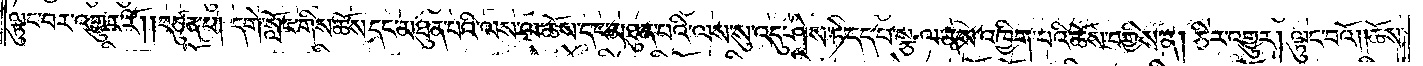ལྟུང་བར་འགྱུར་རོ། །བཙུན་པ། དགེ་སློང་གིས་ཆོས་དང་མཐུན་པའི་ལས་ལ་ཆོས་དང་མཐུན་པའི་ལས་སུ་འདུ་ཤེས་ཏེ་དད་པ་སྩལ་ནས་འཁྱིག་པའི་ཆོས་བགྱིས་ན། ཅིར་འགྱུར། ལྟུང་བའོ། །ཆོས་
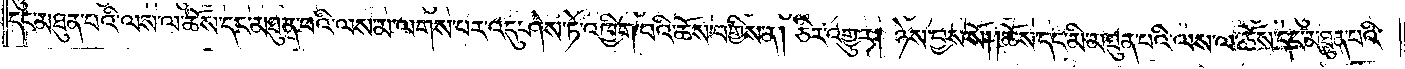དང་མཐུན་པའི་ལས་ལ་ཆོས་དང་མཐུན་པའི་ལས་མ་ལགས་པར་འདུ་ཤེས་ཏེ་འཁྱིག་པའི་ཆོས་བགྱིས་ན། ཅིར་འགྱུར། ཉེས་བྱས་སོ། །ཆོས་དང་མི་མཐུན་པའི་ལས་ལ་ཆོས་དང་མཐུན་པའི་
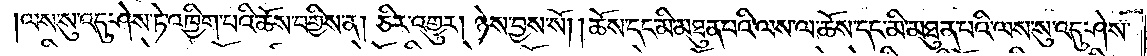ལས་སུ་འདུ་ཤེས་ཏེ་འཁྱིག་པའི་ཆོས་བགྱིས་ན། ཅིར་འགྱུར། ཉེས་བྱས་སོ། །ཆོས་དང་མི་མཐུན་པའི་ལས་ལ་ཆོས་དང་མི་མཐུན་པའི་ལས་སུ་འདུ་ཤེས་
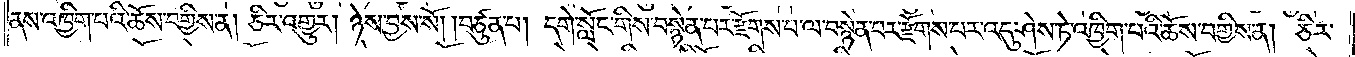ནས་འཁྱིག་པའི་ཆོས་བགྱིས་ན། ཅིར་འགྱུར། ཉེས་བྱས་སོ། །བཙུན་པ། དགེ་སློང་གིས་བསྙེན་པར་རྫོགས་པ་ལ་བསྙེན་པར་རྫོགས་པར་འདུ་ཤེས་ཏེ་འཁྱིག་པའི་ཆོས་བགྱིས་ན། ཅིར་
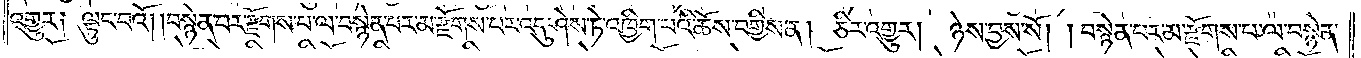འགྱུར༑ ལྟུང་བའོ། །བསྙེན་པར་རྫོགས་པ་ལ་བསྙེན་པར་མ་རྫོགས་པར་འདུ་ཤེས་ཏེ་འཁྱིག་པའི་ཆོས་བགྱིས་ན། ཅིར་འགྱུར། ཉེས་བྱས་སོ། །བསྙེན་པར་མ་རྫོགས་པ་ལ་བསྙེན་
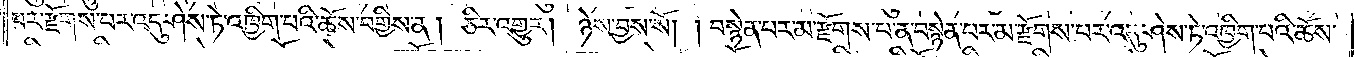པར་རྫོགས་པར་འདུ་ཤེས་ཏེ་འཁྱིག་པའི་ཆོས་བགྱིས་ན། ཅིར་འགྱུར། ཉེས་བྱས་སོ། །བསྙེན་པར་མ་རྫོགས་པ་ན་བསྙེན་པར་མ་རྫོགས་པར་འདུ་ཤེས་ཏེ་འཁྱིག་པའི་ཆོས་
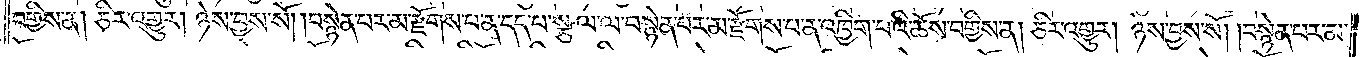བགྱིས་ན། ཅིར་འགྱུར། ཉེས་བྱས་སོ། །བསྙེན་པར་མ་རྫོགས་པ་ན་དད་པ་སྩལ་ལ་བསྙེན་པར་མ་རྫོགས་པ་ན་འཁྱིག་པའི་ཆོས་བགྱིས་ན། ཅིར་འགྱུར། ཉེས་བྱས་སོ། །བསྙེན་པར་མ་
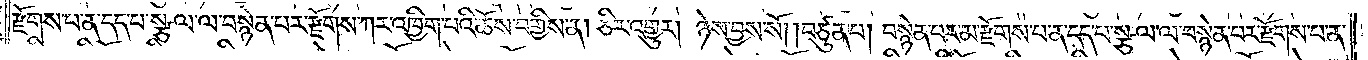རྫོགས་པ་ན་དད་པ་སྩལ་ལ་བསྙེན་པར་རྫོགས་ཀར་འཁྱིག་པའི་ཆོས་བགྱིས་ན། ཅིར་འགྱུར། ཉེས་བྱས་སོ། །བཙུན་པ། བསྙེན་པར་མ་རྫོགས་པ་ན་དད་པ་སྩལ་ལ་བསྙེན་པར་རྫོགས་པ་ན་
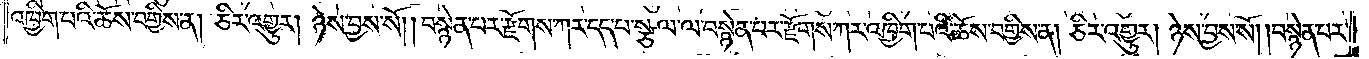འཁྱིག་པའི་ཆོས་བགྱིས་ན། ཅིར་འགྱུར། ཉེས་བྱས་སོ། །བསྙེན་པར་རྫོགས་ཀར་དད་པ་ལ་སྩལ་ལ་བསྙེན་པར་རྫོགས་ཀར་འཁྱིག་པའི་ཆོས་བགྱིས་ན། ཅིར་འགྱུར། ཉེས་བྱས་སོ། །བསྙེན་པར་
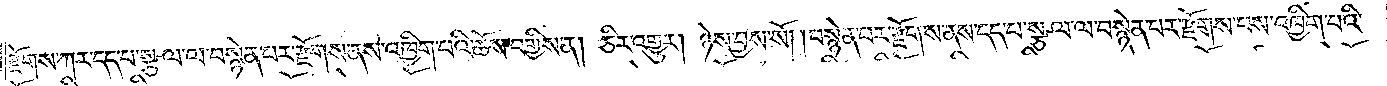རྫོགས་ཀར་དད་པ་སྩལ་ལ་བསྙེན་པར་རྫོགས་ནས་འཁྱིག་པའི་ཆོས་བགྱིས་ན། ཅིར་འགྱུར། ཉེས་བྱས་སོ། །བསྙེན་པར་རྫོགས་ནས་དད་པ་སྩལ་ལ་བསྙེན་པར་རྫོགས་པས་འཁྱིག་པའི་
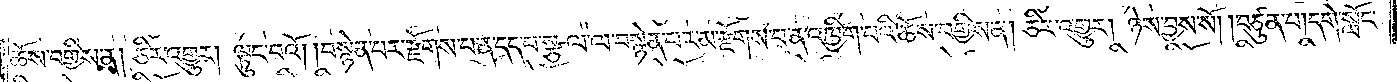ཆོས་བགྱིས་ན། ཅིར་འགྱུར། ལྟུང་བའོ། །བསྙེན་པར་རྫོགས་པ་ན་དད་པ་སྩལ་ལ་བསྙེན་པར་མ་རྫོགས་པ་ན་འཁྱིག་པའི་ཆོས་བགྱིས་ན། ཅིར་འགྱུར། ཉེས་བྱས་སོ། །བཙུན་པ། དགེ་སློང་
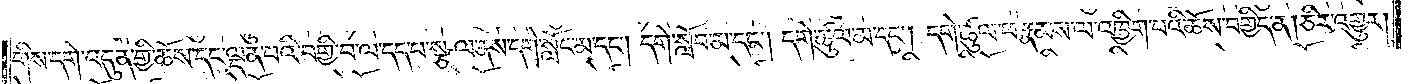གིས་དགེ་འདུན་གྱི་ཆོས་དང་ལྡན་པའི་བགྱི་བ་ལ་དད་པ་སྩལ་ནས་དགེ་སློང་མ་དང༌། དགེ་སློབ་མ་དང༌། དགེ་ཚུལ་མ་དང༌། དགེ་ཚུལ་ཕ་རྣམས་ལ་འཁྱིག་པའི་ཆོས་བགྱིད་ན། ཅིར་འགྱུར།
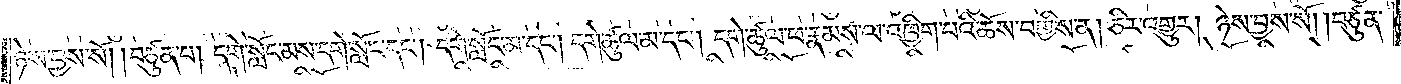ཉེས་བྱས་སོ། །བཙུན་པ། དགེ་སློང་མས་དགེ་སློང་དང༌། དགེ་སློང་མ་དང༌། དགེ་ཚུལ་མ་དང༌། དགེ་ཚུལ་ཕ་རྣམས་ལ་འཁྱིག་པའི་ཆོས་བགྱིས་ན། ཅིར་འགྱུར། ཉེས་བྱས་སོ། །བཙུན་
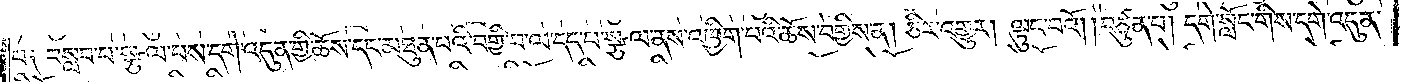པ༑ བསླབ་པ་སྩལ་པས་དགེ་འདུན་གྱི་ཆོས་དང་མཐུན་པའི་བགྱི་བ་ལ་དད་པ་སྩལ་ནས་འཁྱིག་པའི་ཆོས་བགྱིས་ན། ཅིར་འགྱུར། ལྟུང་བའོ། །བཙུན་པ། དགེ་སློང་གིས་དགེ་འདུན་
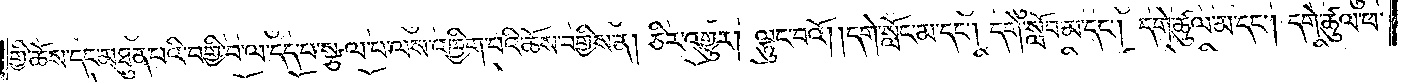གྱི་ཆོས་དང་མཐུན་པའི་བགྱི་བ་ལ་དད་པ་སྩལ་པ་ལས་འཁྱིག་པའི་ཆོས་བགྱིས་ན། ཅིར་འགྱུར། ལྟུང་བའོ། །དགེ་སློང་མ་དང༌། དགེ་སློབ་མ་དང༌། དགེ་ཚུལ་མ་དང༌། དགེ་ཚུལ་ཕ་
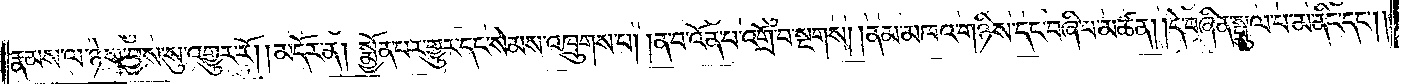རྣམས་ལ་ཉེས་བྱས་སུ་འགྱུར་རོ།    །མདོར་ན། སྨྱོན་པར་གྱུར་དང་སེམས་འཁྲུགས་པ། །ན་བ་འོན་པ་འགྲོ་བ་སྔགས། །ནམ་མཁའ་གཉིས་དང་བཞི་པ་མཚན། །དེ་བཞིན་སྤྲུལ་པ་མ་ནིང་དང༌༎
